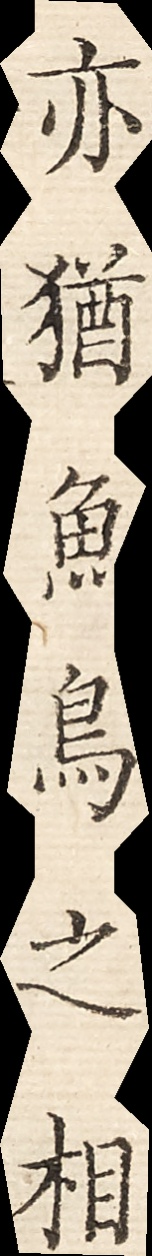亦猶魚鳥之相
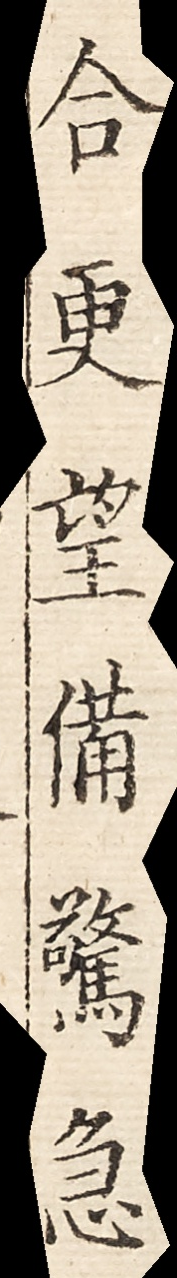合更望備驚急
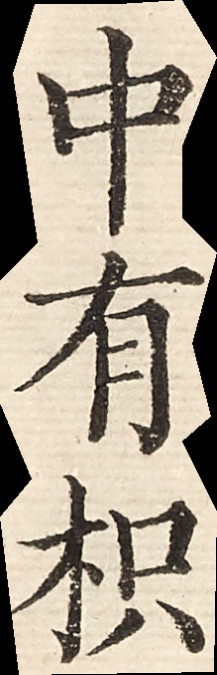中有枳
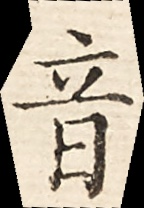音
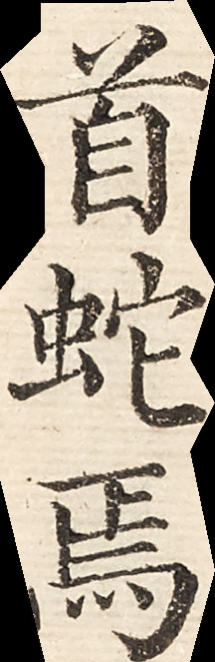首蛇焉
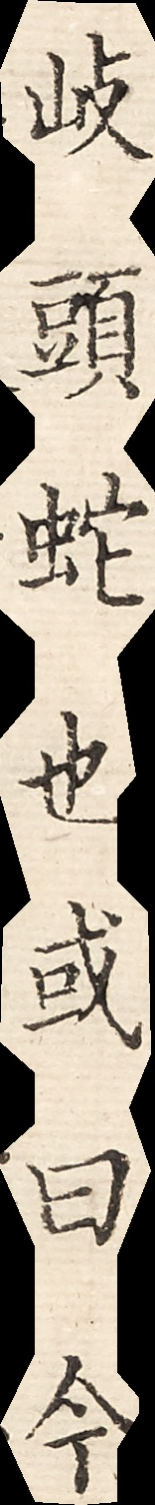岐頭蛇也或曰今
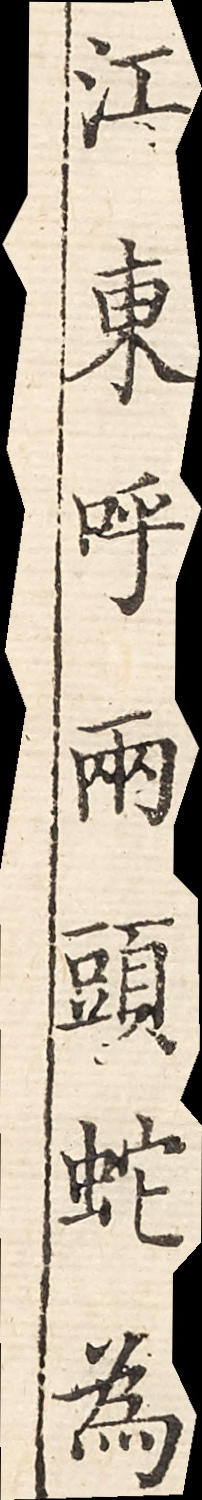江東呼兩頭蛇為
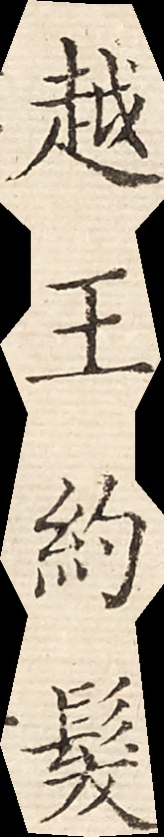越王約發
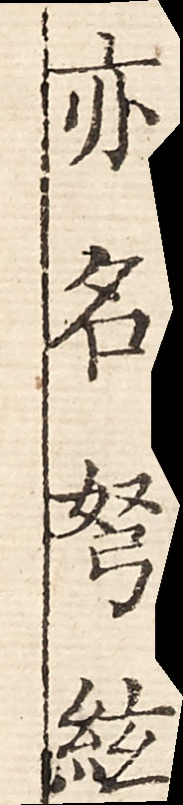亦名弩弦
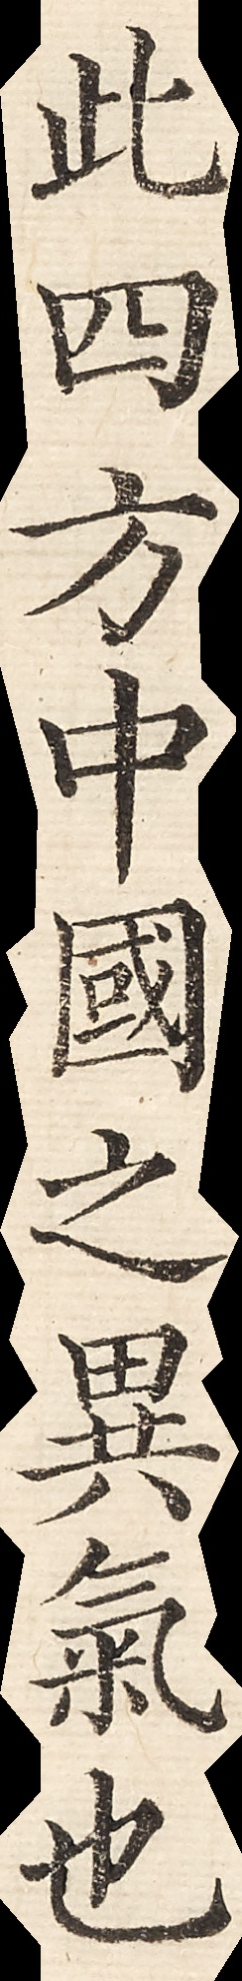此四方中國之異氣也
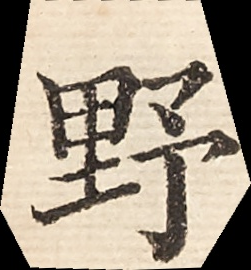野
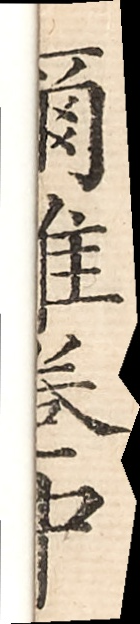爾雅卷中
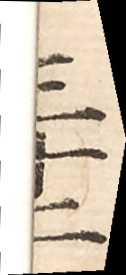三十二
